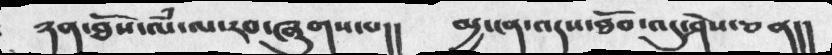ཉན་ཐོས་ལཾ་ལ་རབ་ཞུགས་པ།།      མྱ་ངན་འདས་ཐོབ་འདུ་ཤེས་ཅན།།
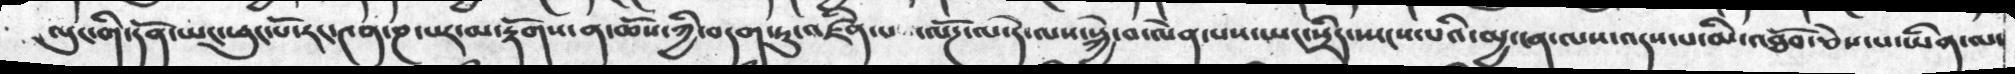ལུང་གི་དོན་ཕུང་པོ་རང་༤ན་ཎ་པར་མ་རྟོགས་ན་ཆོས་ཀྱི་བདག་ཏུ་འཛིན་པ ་ལོཌ་ལ་དེ་ལས་སྐྱེ་བ་ལེན་པས་ཡང་སྲིད་སྤངས་པའི་མྱ་ངན་ལས་འདས་པ་མི་འཐོབ་ཅེས་པ་ཡིན་ལ་
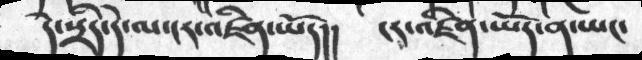དེ་སྲིད་དེ་ལ་ངར་འཛིན་ཡོད།།  ངར་འཛིན་ཡོད་ན་ཡང་
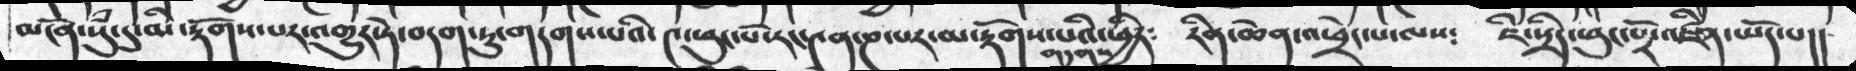མངོན་སུཾ་དུ་མི་རྟོགས་པར་འགྱུར་ཏེ་བདག་ཏུ་གདགས་པའི་༤་ཕུང་པོ་རང་༤ན་ཎ་པར་མ་རྟོགས་པའི་ཕྱིར༴  རིན་ཆེན་འཕྲེང་པ་ལས༴  ཇི་སྲིད་ཕུང་པོར་འཛིན་ཡོད་པ།།
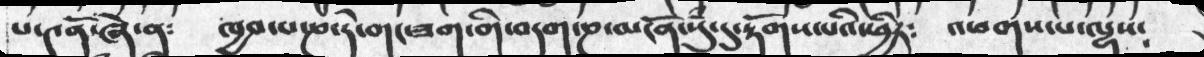པ་༤ནོ་ཞེ་ན༴   ཁྱབ་པ་ཎ་དེ་གང་ཟག་གི་བདག་ཎ་མངོན་སུཾ་དུ་རྟོགས་པའི་ཕྱིར༴    འཕགས་པ་ལྷས༴
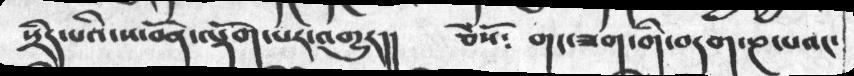སྲིད་པའི་ས་བོན་ལྡོག་པར་འགྱུར།།   ཅེསོ༴   གང་ཟག་གི་བདག་ཎ་པའང་
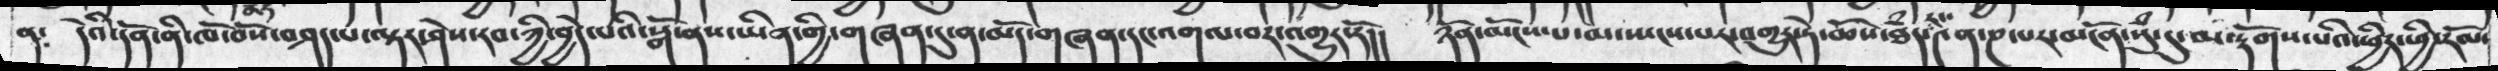ན༴  དེའི་དོན་ནི་ཁོ་བོས་བཤད་པ་ལྟར་ཤེས་རབ་ཀྱི་བྱེད་པའི་སྒོ་ནས་ཡིན་གྱི་གཞན་དུ་ན་མདོ་གཞན་དང་འགལ་བར་འགྱུར་རོ།།   ཉོན་མོངས་པ་མ་སྤངས་པར་འགྱུར་ཏེ་ཆོས་ཐཾད་༤ན་ཎ་པར་མངོན་སུཾ་དུ་མ་རྟོགས་པའི་ཕྱིར་ཕྱི་རོལ་
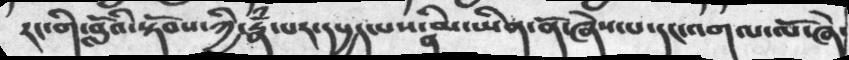རང་གི་བློའི་སྟོབས་ཀྱི་རྣྃ་པར་དཔྱད་པས་ནི་མ་ཡིན་ནོ་ཞེས་པ་དང་འགལ་ལོ་ཞེ་
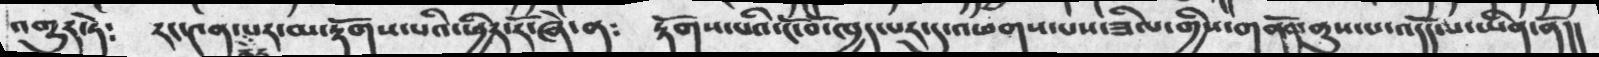འགྱུར་ཏེ༴  རང་༤ན་མེ་པར་མ་རྟོགས་པའི་ཕྱིར་རོ་ཞེ་ན༴   རྟོགས་པའི་ངོ་བོ་ཁྱད་པར་དུ་འཕགས་པས་ཟིལ་གྱིས་གནོན་ནུས་པ་འདོད་པ་ཡིན་ནོ།།
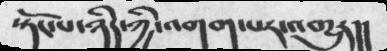སྟོང་པ་ཉིད་ཀྱི་འགག་པར་འགྱུར།།
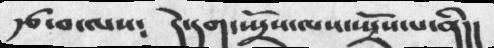རྩ་བ་ལས༴    དེ་དག་སྤྲོས་ལས་སྤྲོས་པ་ནི།།
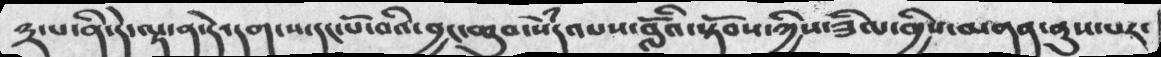༣་པ་ནི་དེ་ལྟ་ན་དེ་དག་ས་དང་པོ་བའི་བྱང་ཆུབ་སེཾདའཔས་བློའི་སྟོབས་ཀྱིས་ཟིལ་གྱིས་མནན་ནུས་པར་
